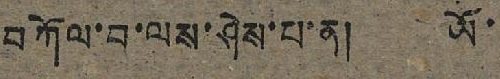བཀོལ་བ་ལས་ཤེས་པ་ན། ཡོ་
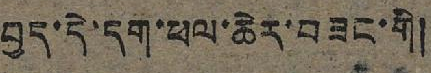བྱད་དེ་དག་ཕལ་ཆེར་བཟང་གི།
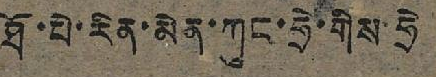ཐོ་པེ་རིན་མེན་ཀུང་ཧྲེ་གིས་ཧྲེ
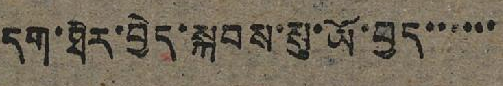དག་ཐེར་བྱེད་སྐབས་སུ་ཡོ་བྱད་་་་་་
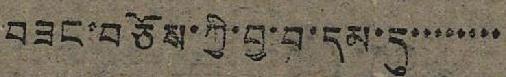བཟང་བཅོས་ཀྱི་བྱ་བ་དམ་དུ་་་་་་་་
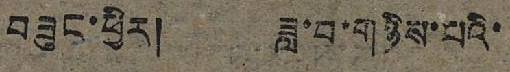བཟུང་ཕྱིར། ཟླ་བ་གཉིས་པའི་
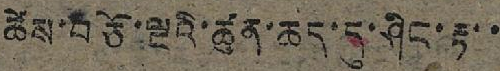ཚེས་བཅོ་ལྔའི་ཚུན་ཆད་དུ་ཤིང་རྟ་་
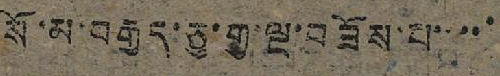སོ་མ་བརྒྱད་ཅུ་གྱ་ལྔ་བཟོས་པ་་་་་
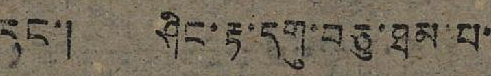དང་། ཤིང་རྟ་དགུ་བཅུ་ཐམ་པ་
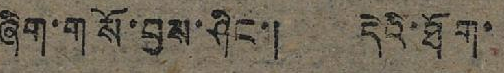ཞིག་གསོ་བྱས་ཤིང་། དེའི་ཐོག་
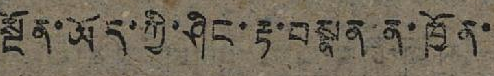སྔོན་ཡོད་ཀྱི་ཤིང་རྟ་བསྣན་ན་ཁྱོན་
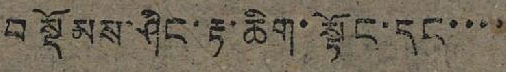བསྡོམས་ཤིང་རྟ་ཆིག་སྟོང་དང་་་་
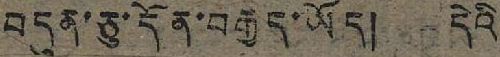བདུན་ཅུ་དོན་བརྒྱད་ཡོད། དེའི
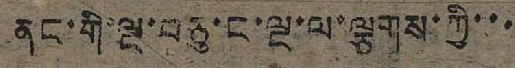ནང་གི་ལྔ་བཅུ་ང་ལྔ་ལ་ལྕགས་ཀྱི་་་
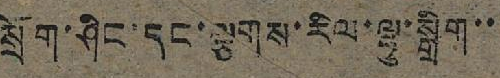སྲོག་ཤིང་དང་ལྕགས་རིལ་ལྷུ་སྒྲིག་་
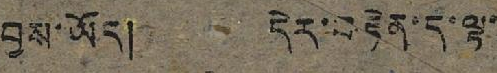བྱས་ཡོད། དེར་བརྟེན་ད་ལྟ་
